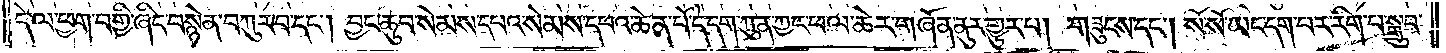དེ་ལ་ཕྱག་བགྱི་ཞིང་བསྙེན་བཀུར་བ་དང༌། བྱང་ཆུབ་སེམས་དཔའ་སེམས་དཔའ་ཆེན་པོ་དེ་དག་ཀུན་ཀྱང་ཕལ་ཆེར་གཞོན་ནུར་གྱུར་པ། གཟུངས་དང༌། སོ་སོ་ཡང་དག་པར་རིག་པ་སྒྲུབ་
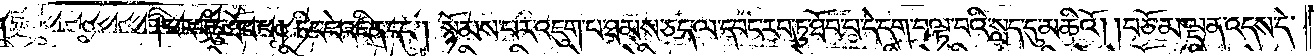པ་རབ་ཏུ་ཐོབ་པ། ཏིང་ངེ་འཛིན་དང༌། སྙོམས་པར་འཇུག་པ་ཐམས་ཅད་ལ་དབང་རབ་ཏུ་ཐོབ་པ་དེ་དག་བལྟ་བའི་སླད་དུ་མཆིའོ། །བཅོམ་ལྡན་འདས་དེ་
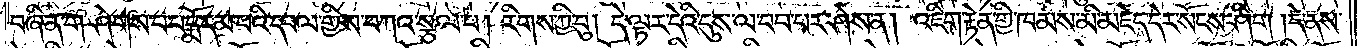བཞིན་གཤེགས་པ་པདྨོ་དམ་པའི་དཔལ་གྱིས་བཀའ་སྩལ་པ། རིགས་ཀྱི་བུ། དེ་ལྟར་དེའི་དུས་ལ་བབ་པར་ཤེས་ན། འཇིག་རྟེན་གྱི་ཁམས་མི་མཇེད་དེར་སོངས་ཤིག །དེ་ནས་
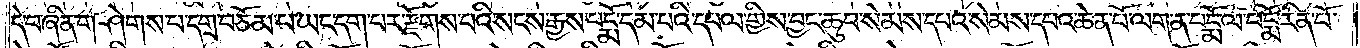དེ་བཞིན་གཤེགས་པ་དགྲ་བཅོམ་པ་ཡང་དག་པར་རྫོགས་པའི་སངས་རྒྱས་པདྨོ་དམ་པའི་དཔལ་གྱིས་བྱང་ཆུབ་སེམས་དཔའ་སེམས་དཔའ་ཆེན་པོ་ལག་ན་པདྨོ་ལ་པདྨོ་རིན་པོ་
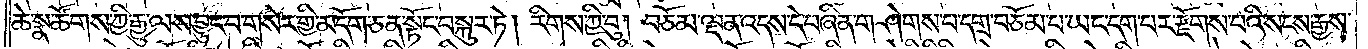ཆེ་སྣ་ཚོགས་ཀྱི་རྒྱུ་ལས་བྱུང་བ་གསེར་གྱི་མདོག་ཅན་སྟོང་བསྐུར་ཏེ། རིགས་ཀྱི་བུ། བཅོམ་ལྡན་འདས་དེ་བཞིན་གཤེགས་པ་དགྲ་བཅོམ་པ་ཡང་དག་པར་རྫོགས་པའི་སངས་རྒྱས་
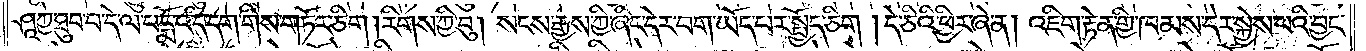ཤཱཀྱ་ཐུབ་པ་དེ་ལ་པདྨོ་འདི་དག་གིས་གཏོར་ཅིག །རིགས་ཀྱི་བུ། སངས་རྒྱས་ཀྱི་ཞིང་དེར་བག་ཡོད་པར་སྤྱོད་ཅིག །དེ་ཅིའི་ཕྱིར་ཞེ་ན། འཇིག་རྟེན་གྱི་ཁམས་དེར་སྐྱེས་པའི་བྱང་
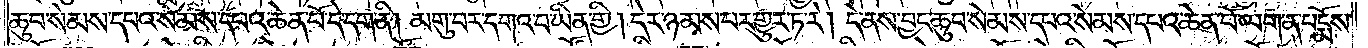ཆུབ་སེམས་དཔའ་སེམས་དཔའ་ཆེན་པོ་དེ་དག་ནི། མགུ་བར་དགའ་བ་ཡིན་གྱི། དེར་ཉམས་པར་གྱུར་ཏ་རེ། དེ་ནས་བྱང་ཆུབ་སེམས་དཔའ་སེམས་དཔའ་ཆེན་པོ་ལག་ན་པདྨོས་
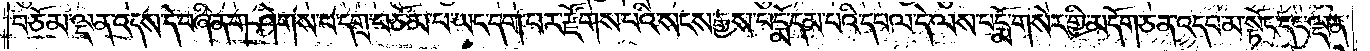བཅོམ་ལྡན་འདས་དེ་བཞིན་གཤེགས་པ་དགྲ་བཅོམ་པ་ཡང་དག་པར་རྫོགས་པའི་སངས་རྒྱས་པདྨོ་དམ་པའི་དཔལ་དེ་ལས་པདྨོ་གསེར་གྱི་མདོག་ཅན་འདབ་མ་སྟོང་དང་ལྡན་
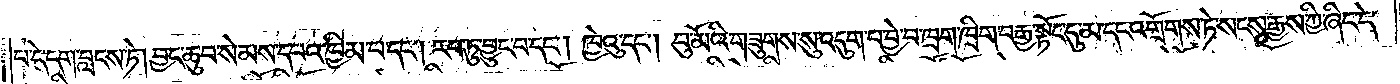པ་དེ་དག་བླངས་ཏེ། བྱང་ཆུབ་སེམས་དཔའ་ཁྱིམ་པ་དང༌། རབ་ཏུ་བྱུང་བ་དང༌། ཁྱེའུ་དང༌། བུ་མོའི་གཟུགས་སུ་འདུག་པ་བྱེ་བ་ཁྲག་ཁྲིག་བརྒྱ་སྟོང་དུ་མ་དང་འགྲོགས་ཏེ་སངས་རྒྱས་ཀྱི་ཞིང་དེ་
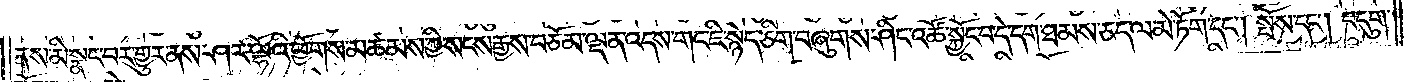ནས་མི་སྣང་བར་གྱུར་ནས་ཤར་ལྷོའི་ཕྱོགས་མཚམས་ཀྱི་སངས་རྒྱས་བཅོམ་ལྡན་འདས་གང་ཇི་སྙེད་ཅིག་བཞུགས་ཤིང་འཚོ་སྐྱོང་བ་དེ་དག་ཐམས་ཅད་ལ་མེ་ཏོག་དང༌། སྤོས་དང༌། བདུག་
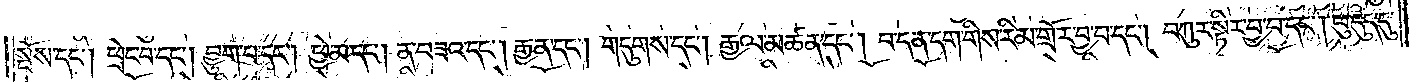སྤོས་དང༌། ཕྲེང་བ་དང༌། བྱུག་པ་དང༌། ཕྱེ་མ་དང༌། ན་བཟའ་དང༌། རྒྱན་དང༌། གདུགས་དང༌། རྒྱལ་མཚན་དང༌། བ་དན་དག་གིས་རིམ་གྲོར་བྱ་བ་དང༌། བཀུར་སྟིར་བྱ་བ་དང༌། ཕུ་དུད་དུ་
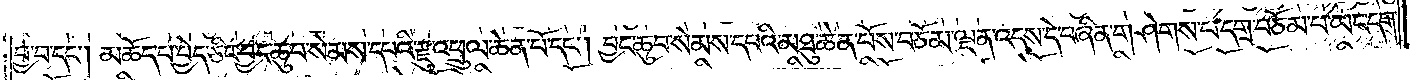བྱ་བ་དང༌། མཆོད་པ་བྱེད་ཅིང་བྱང་ཆུབ་སེམས་དཔའི་རྫུ་འཕྲུལ་ཆེན་པོ་དང༌། བྱང་ཆུབ་སེམས་དཔའི་མཐུ་ཆེན་པོས་བཅོམ་ལྡན་འདས་དེ་བཞིན་གཤེགས་པ་དགྲ་བཅོམ་པ་ཡང་དག་
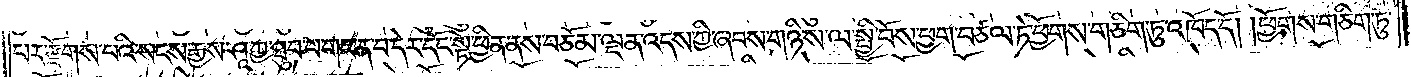པར་རྫོགས་པའི་སངས་རྒྱས་ཤཱཀྱ་ཐུབ་པ་གང་ན་བ་དེར་དོང་སྟེ་ཕྱིན་ནས་བཅོམ་ལྡན་འདས་ཀྱི་ཞབས་གཉིས་ལ་སྤྱི་བོས་ཕྱག་བཙལ་ཏེ་ཕྱོགས་གཅིག་ཏུ་འཁོད་དོ། །ཕྱོགས་གཅིག་ཏུ་
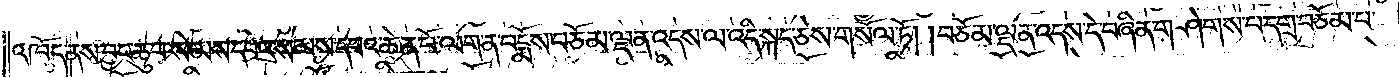འཁོད་ནས་བྱང་ཆུབ་སེམས་དཔའ་སེམས་དཔའ་ཆེན་པོ་ལག་ན་པདྨོས་བཅོམ་ལྡན་འདས་ལ་འདི་སྐད་ཅེས་གསོལ་ཏོ། །བཅོམ་ལྡན་འདས་དེ་བཞིན་གཤེགས་པ་དགྲ་བཅོམ་པ་
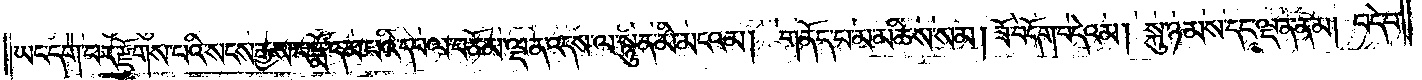ཡང་དག་པར་རྫོགས་པའི་སངས་རྒྱས་པདྨོ་དམ་པའི་དཔལ་བཅོམ་ལྡན་འདས་ལ་སྙུན་མི་མངའམ། གནོད་པ་མ་མཆིས་སམ། ཟོ་བདོག་བདེའམ། སྐུ་ཉམས་དང་ལྡན་ནམ། བདེ་བ་
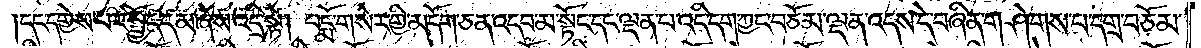དང་དགྱེས་པར་སྤྱོད་དམ་ཞེས་འདྲི་སྟེ། པདྨོ་གསེར་གྱི་མདོག་ཅན་འདབ་མ་སྟོང་དང་ལྡན་པ་འདི་དག་ཀྱང་བཅོམ་ལྡན་འདས་དེ་བཞིན་གཤེགས་པ་དགྲ་བཅོམ་
